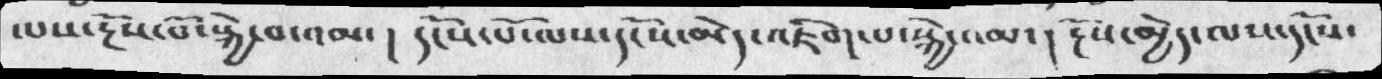ལས་རྔོས་པོ་སྐྱེ་བ་འམ་། དངོས་པོ་ལས་དངསོ་མེད་འཇིག་པ་སྐྱེ་འམ་། རྔོས་མྱེད་ལས་དངོས་
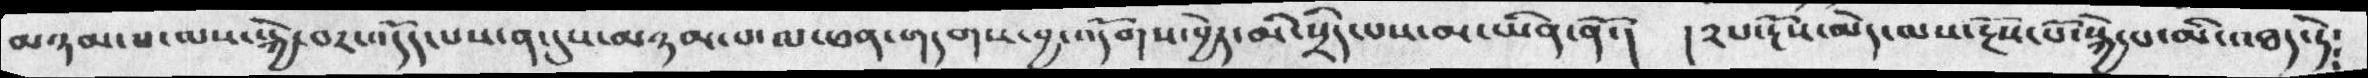མཉམ་པ་ལས་སྐྱེ་བར་འདོད་པས་ན་དུས་མཉམ་པ་ལ་ཕན་གདགས་བྱ་འདོགས་བྱེད་མིསྲིད་པས་མ་ཡིན་ནོ་།  །༢པ་རྔོས་མེད་ལས་རྔོས་པོ་སྐྱེ་པ་མི་འཐད་ཏེ༴
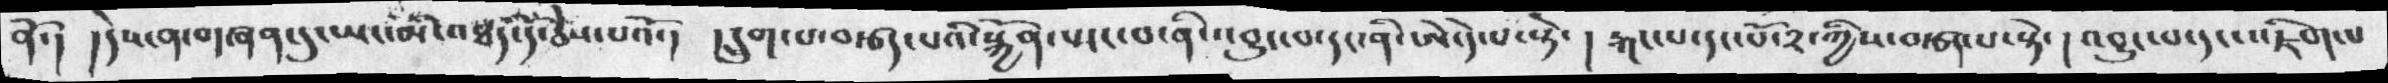ནོ་། །དེས་ན་གཞན་དུ་ཡང་མི་འཐད་དོ་ཅེས་པའོ་།  །དྲུག་པ་བརྩད་པའི་སྐྱོན་སྤང་བ་ནི་འབྱུང་བ་དང་ནི་ཨེ་དེ་པ་སྟེ་། རྐང་པ་དང་པོ་༢་ཀྱིས་བརྩད་པ་སྟེ་། འབྱུང་བ་དང་འཇིག་པ
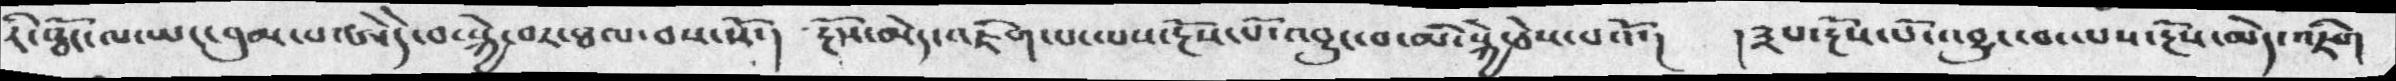རི་ཝོང་ལ་ཡང་བུམ་པ་ཨེདེ་བ་སྐྱེ་བར་ཐལ་བས་སོ་།  རྔོས་མེད་འཇིག་པ་ལས་རྔོས་པོ་འབྱུང་བ་མི་སྐྱེ་ཅེས་པའོ་། །༣པ་རྔོས་པོ་འབྱུང་བ་པས་རྔོས་མེད་འཇིག
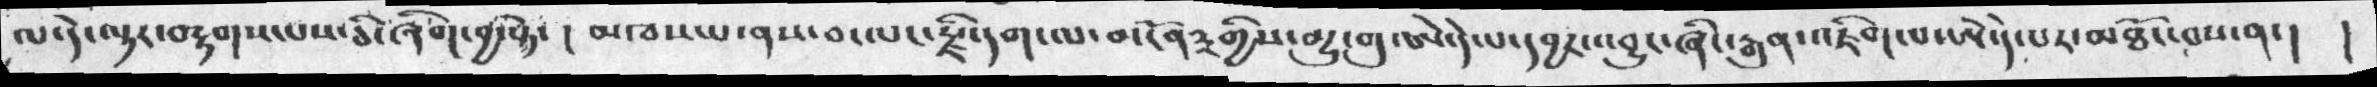ལ་དེ་ལྟར་བརྟགས་པས་ཅི་ཞིག་བྱ་སྟེ་། མ་ཅས་པ་ནས་བ་ལང་རྫི་དག་ལ་མངོན༣གྱིས་མྱུ་གུ་ཨེ་དེ་པ་དབྱར་འབྱུང་ཞིང་རྒུན་འཇིག་པ་ཨེ་དེ་པར་མཐོང་བས་ན་། །
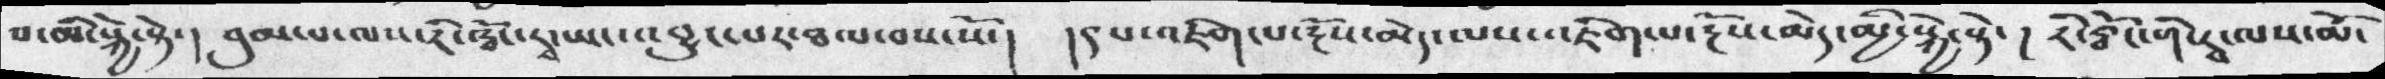བ་མི་སྐྱེ་སྟེ་། བུམ་པ་ལས་རི་ཝོང་རྭ་ཡང་འབྱུང་པར་ཐལ་བས་སོ་།  །༩པ་འཇིག་པ་རྔོས་མེད་ལས་འཇིག་པ་རྔོས་མེད་མྱི་སྐྱེ་སྟེ་། རི་ཝོང་གི་རྭ་ལས་མི་
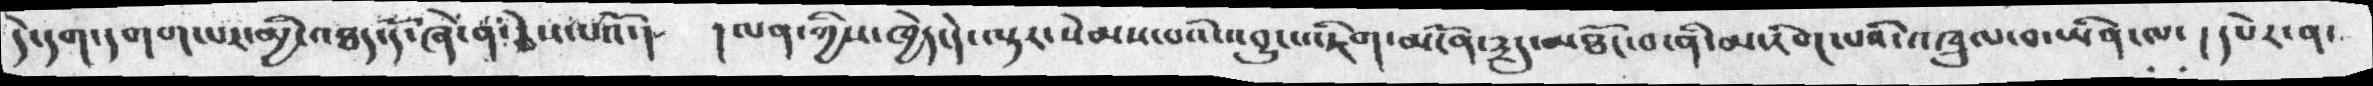དེ་དག་དགག་པར་མྱི་འཐད་དོ་ཞེ་ན་ཅེས་པའོ་།  །ལན་ཀྱིས་ཁྱེད་དེ་ལྟར་སེམས་པའི་འབྱུང་འཇིག་མངོན་༣དུ་མཐོང་བ་ནི་མ་རིག་པའི་འཁྲུལ་བ་ཡིན་ལ་། དཔེར་ན་
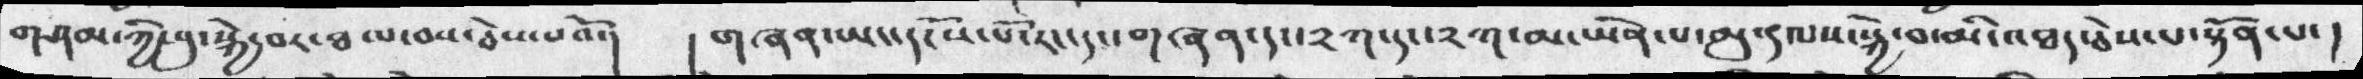གཤམ་ཀྱི་བུ་སྐྱེ་བར་ཐལ་བས་ཅེས་པའོ་།  གཞན་ཡང་དངོས་པོ་རང་དང་གཞན་དང་༢ཀ་དང་༢ཀ་མ་ཡིན་པ་མུ་༩ལས་སྐྱེ་བ་མི་འཐད་ཅེས་པ་སྟོན་པ་།
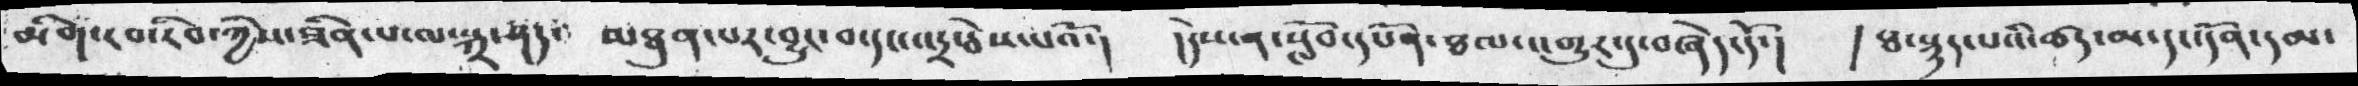མིག་རབ་རིབ་ཀྱིས་ཟིན་པ་ལ་སྐྲ་ཤད་  མཐུན་པར་བྱུང་བ་དང་འདྲ་ཅེས་པའོ་།  །དེས་ན་སློབ་དཔོན་ཐལ་འགྱུར་དུ་བཞེད་དོ་།  །ཐ་སྙད་པའི་ཚད་མ་དང་དོན་དམ་
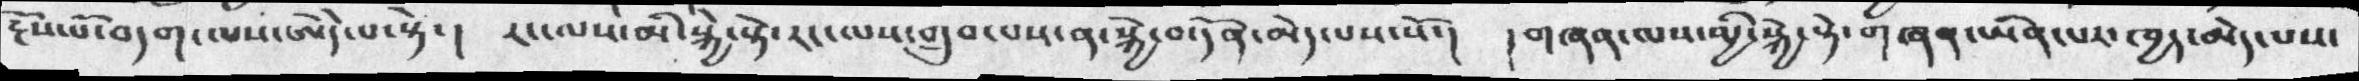རྔོས་པོ་བདག་ལས་ཨེདེ་པ་སྟེ་།  རང་ལས་མི་སྐྱེ་སྟེ་རང་ལས་གྲུབ་པས་ན་སྐྱེ་བ་དོན་མེད་པས་སོ་།  །གཞཉ་ལས་མྱི་སྐྱེ་སྟེ་གཞན་ཡིན་པར་ཁྱད་མེད་པས་
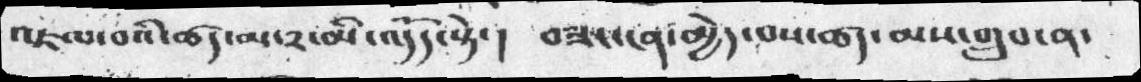འཇལ་བའི་ཚད་མ་༢་མི་འདོད་སྟེ་།  བཟང་ངན་མྱེད་པས་ཚས་མས་གྲུབ་ན་
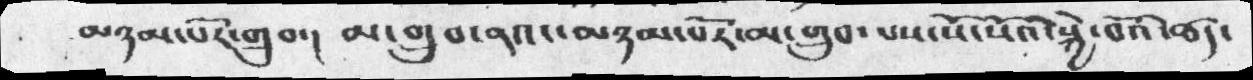མཉམ་པོར་གྲུབ་།  མ་གྲུབ་ནའང་མཉམ་པོར་མ་གྲུབ་པས་སོ་་སོའི་སྐྱེ་བོའི་ཚད་
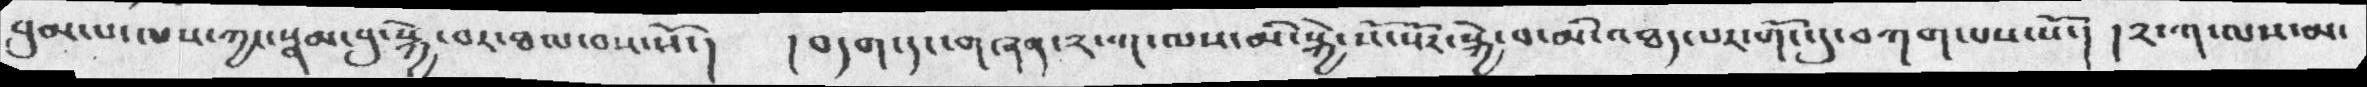བུམ་པ་ལས་ཀྱང་སྣམ་བུ་སྐྱེ་བར་ཐལ་བས་སོ་།  །བདག་དང་གཞན་༢་ག་ལས་མི་སྐྱེ་སོ་སོར་སྐྱེ་བ་མི་འཐད་པར་གོང་དུ་བཀག་པས་སོ་། །༢་ཀ་ལས་མ་
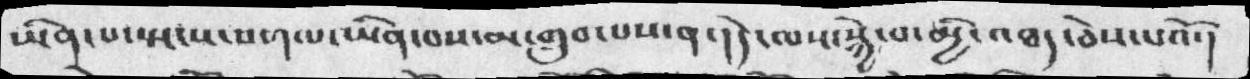ཡིན་པ་སྤངས་འགལ་ཡིན་བས་མ་གྲུབ་པས་ན་།དེ་ལས་སྐྱེ་བ་མྱི་འཐད་ཅེས་པའོ་།
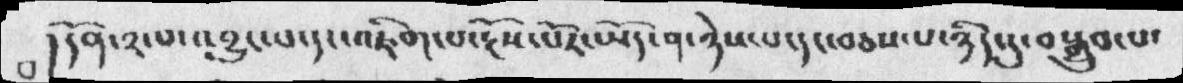།དོན་༢་པ་འབྱུང་པ་དང་འཇིག་པ་རྔོས་པོར་ཡོད་ན་ཉེས་པ་དང་བཅས་པ་ཉིད་དུ་བསྒྲུབ་པ་
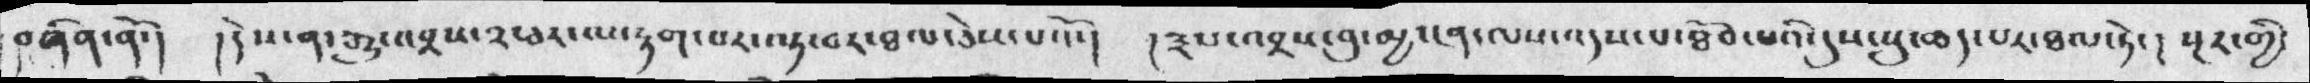བཞིན་ནོ་།  །དེས་ན་རྒྱུ་འབྲས་༢་ཅར་ལ་རྟག་པར་ལྟ་བར་ཐལ་ཅེས་པའོ་།  །༣པ་འབྲས་བུ་མྱ་ངན་ལས་འདས་པ་ཐོབ་པའི་དུས་སུ་ཆད་པར་ཐལ་ཏེ་།  སྔར་གྱི་
